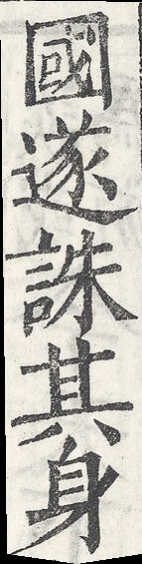國遂誅其身
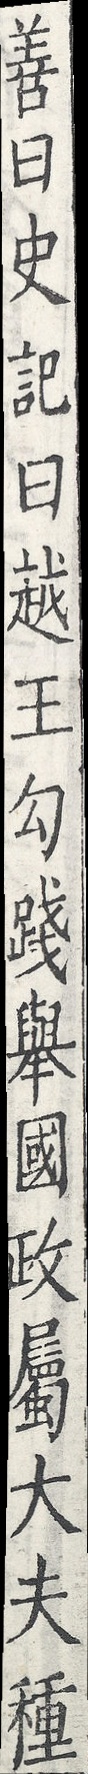善曰史記曰越王勾踐舉國政屬大夫種
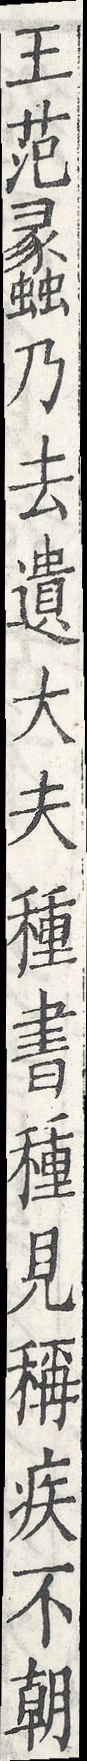王范蠡乃去遺大夫種書種見稱疾不朝
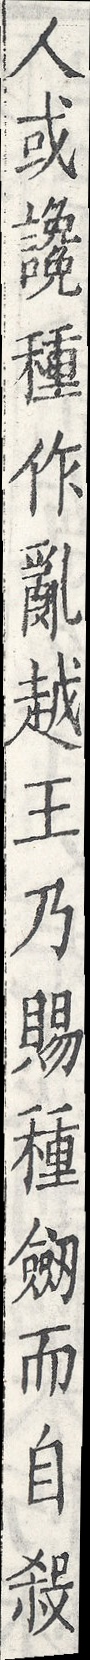人或讒種作亂越王乃賜種劍而自殺
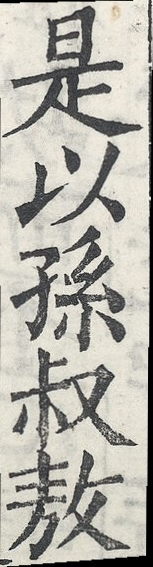是以孫叔敖
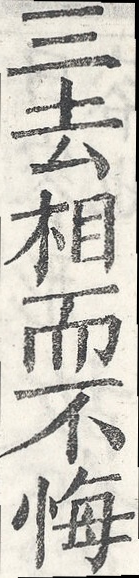三去相而不悔
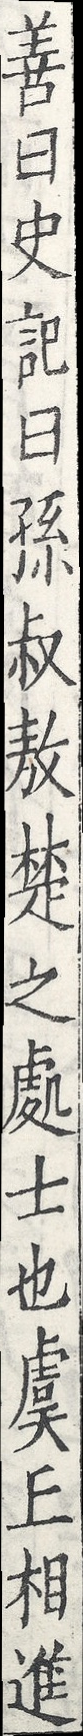善曰史記曰孫叔敖楚之處士也虞丘相進
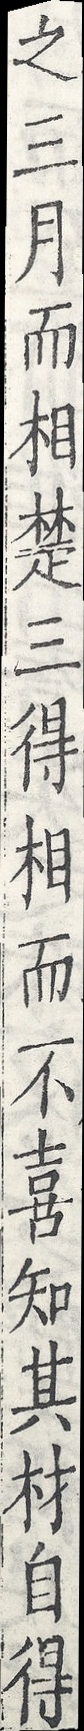之三月而相楚三得相而不喜知其材自得
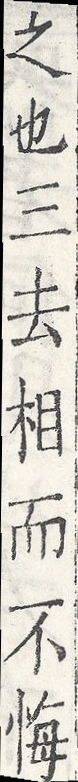之也三去相而不悔
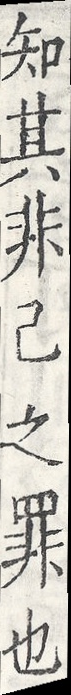知其非己之罪也
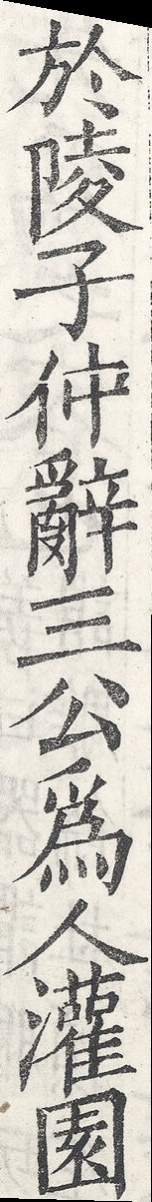於陵子仲辭三公為人灌園
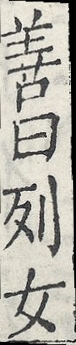善曰列女
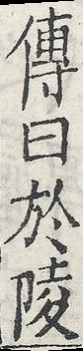傳曰於陵
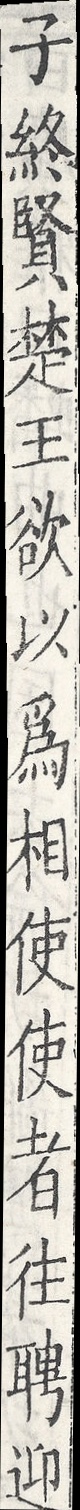子終賢楚王欲以為相使使者往聘迎
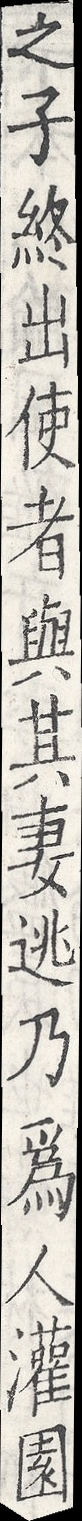之子終出使者與其妻逃乃為人灌園
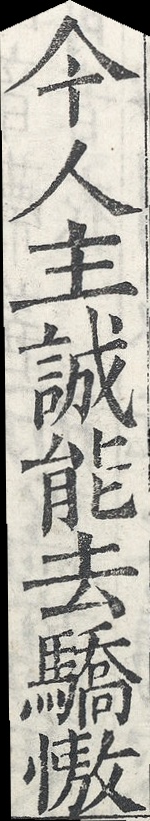今人主誠能去驕傲
